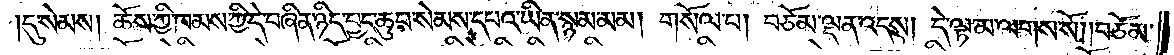དུ་སེམས། ཆོས་ཀྱི་ཁམས་ཀྱི་དེ་བཞིན་ཉིད་བྱང་ཆུབ་སེམས་དཔའ་ཡིན་སྙམ་མམ། གསོལ་པ། བཅོམ་ལྡན་འདས། དེ་ལྟ་མ་ལགས་སོ། །བཅོམ་
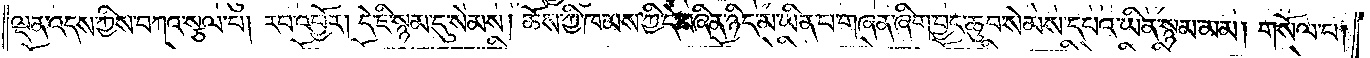ལྡན་འདས་ཀྱིས་བཀའ་སྩལ་པ། རབ་འབྱོར། དེ་ཇི་སྙམ་དུ་སེམས། ཆོས་ཀྱི་ཁམས་ཀྱི་དེ་བཞིན་ཉིད་མ་ཡིན་པ་གཞན་ཞིག་བྱང་ཆུབ་སེམས་དཔའ་ཡིན་སྙམ་མམ། གསོལ་པ།
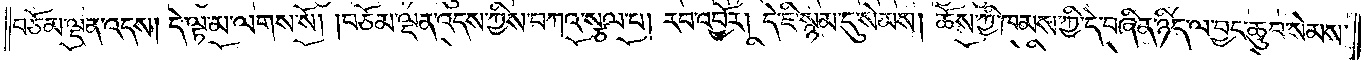བཅོམ་ལྡན་འདས། དེ་ལྟ་མ་ལགས་སོ། །བཅོམ་ལྡན་འདས་ཀྱིས་བཀའ་སྩལ་པ། རབ་འབྱོར། དེ་ཇི་སྙམ་དུ་སེམས། ཆོས་ཀྱི་ཁམས་ཀྱི་དེ་བཞིན་ཉིད་ལ་བྱང་ཆུབ་སེམས་
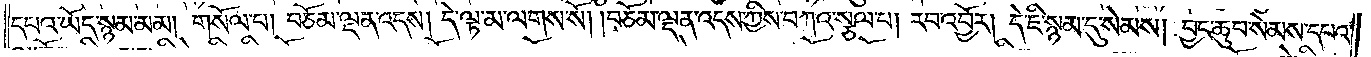དཔའ་ཡོད་སྙམ་མམ། གསོལ་པ། བཅོམ་ལྡན་འདས། དེ་ལྟ་མ་ལགས་སོ། །བཅོམ་ལྡན་འདས་ཀྱིས་བཀའ་སྩལ་པ། རབ་འབྱོར། དེ་ཇི་སྙམ་དུ་སེམས། བྱང་ཆུབ་སེམས་དཔའ་
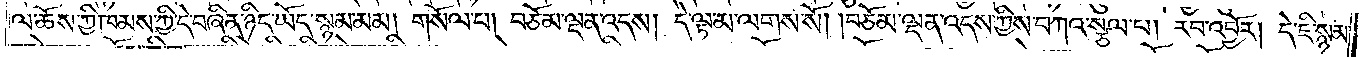ལ་ཆོས་ཀྱི་ཁམས་ཀྱི་དེ་བཞིན་ཉིད་ཡོད་སྙམ་མམ། གསོལ་པ། བཅོམ་ལྡན་འདས། དེ་ལྟ་མ་ལགས་སོ། །བཅོམ་ལྡན་འདས་ཀྱིས་བཀའ་སྩལ་པ། རབ་འབྱོར། དེ་ཇི་སྙམ་
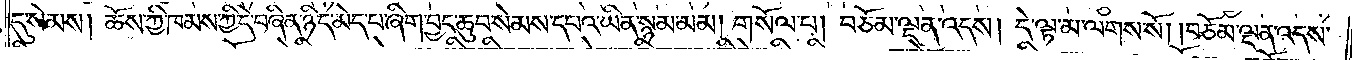དུ་སེམས། ཆོས་ཀྱི་ཁམས་ཀྱི་དེ་བཞིན་ཉིད་མེད་པ་ཞིག་བྱང་ཆུབ་སེམས་དཔའ་ཡིན་སྙམ་མམ། གསོལ་པ། བཅོམ་ལྡན་འདས། དེ་ལྟ་མ་ལགས་སོ། །བཅོམ་ལྡན་འདས་
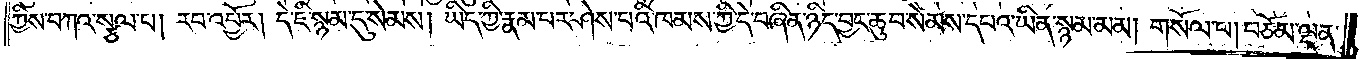ཀྱིས་བཀའ་སྩལ་པ། རབ་འབྱོར། དེ་ཇི་སྙམ་དུ་སེམས། ཡིད་ཀྱི་རྣམ་པར་ཤེས་པའི་ཁམས་ཀྱི་དེ་བཞིན་ཉིད་བྱང་ཆུབ་སེམས་དཔའ་ཡིན་སྙམ་མམ། གསོལ་པ། བཅོམ་ལྡན་
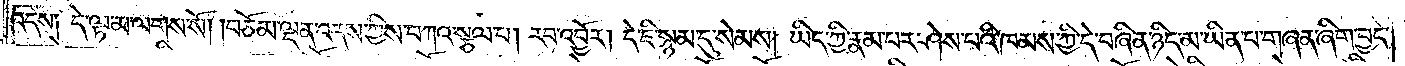འདས༑ དེ་ལྟ་མ་ལགས་སོ། །བཅོམ་ལྡན་འདས་ཀྱིས་བཀའ་སྩལ་པ། རབ་འབྱོར། དེ་ཇི་སྙམ་དུ་སེམས། ཡིད་ཀྱི་རྣམ་པར་ཤེས་པའི་ཁམས་ཀྱི་དེ་བཞིན་ཉིད་མ་ཡིན་པ་གཞན་ཞིག་བྱང་
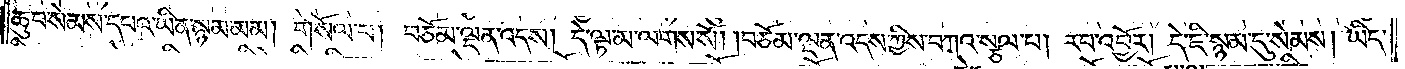ཆུབ་སེམས་དཔའ་ཡིན་སྙམ་མམ། གསོལ་པ། བཅོམ་ལྡན་འདས། དེ་ལྟ་མ་ལགས་སོ། །བཅོམ་ལྡན་འདས་ཀྱིས་བཀའ་སྩལ་པ། རབ་འབྱོར། དེ་ཇི་སྙམ་དུ་སེམས། ཡིད་
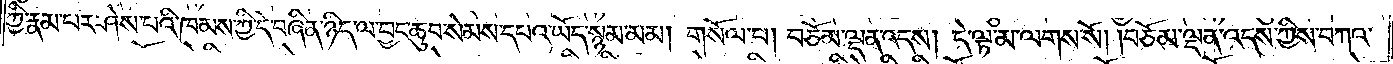ཀྱི་རྣམ་པར་ཤེས་པའི་ཁམས་ཀྱི་དེ་བཞིན་ཉིད་ལ་བྱང་ཆུབ་སེམས་དཔའ་ཡོད་སྙམ་མམ། གསོལ་པ། བཅོམ་ལྡན་འདས། དེ་ལྟ་མ་ལགས་སོ། །བཅོམ་ལྡན་འདས་ཀྱིས་བཀའ་
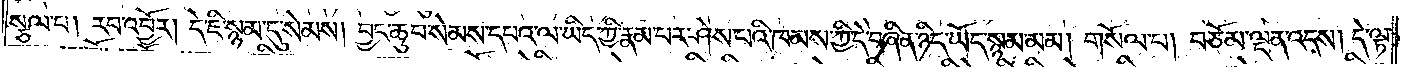སྩལ་པ། རབ་འབྱོར། དེ་ཇི་སྙམ་དུ་སེམས། བྱང་ཆུབ་སེམས་དཔའ་ལ་ཡིད་ཀྱི་རྣམ་པར་ཤེས་པའི་ཁམས་ཀྱི་དེ་བཞིན་ཉིད་ཡོད་སྙམ་མམ། གསོལ་པ། བཅོམ་ལྡན་འདས། དེ་ལྟ་
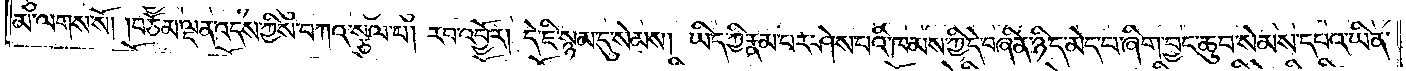མ་ལགས་སོ། །བཅོམ་ལྡན་འདས་ཀྱིས་བཀའ་སྩལ་པ། རབ་འབྱོར། དེ་ཇི་སྙམ་དུ་སེམས། ཡིད་ཀྱི་རྣམ་པར་ཤེས་པའི་ཁམས་ཀྱི་དེ་བཞིན་ཉིད་མེད་པ་ཞིག་བྱང་ཆུབ་སེམས་དཔའ་ཡིན་
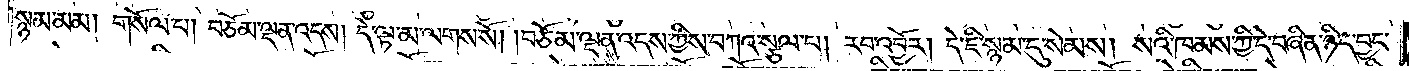སྙམ་མམ། གསོལ་པ། བཅོམ་ལྡན་འདས། དེ་ལྟ་མ་ལགས་སོ། །བཅོམ་ལྡན་འདས་ཀྱིས་བཀའ་སྩལ་པ། རབ་འབྱོར། དེ་ཇི་སྙམ་དུ་སེམས། སའི་ཁམས་ཀྱི་དེ་བཞིན་ཉིད་བྱང་
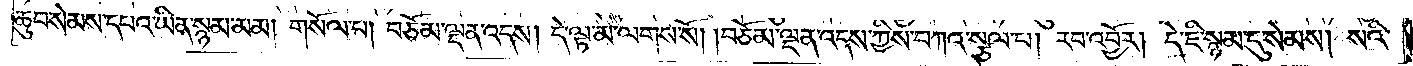ཆུབ་སེམས་དཔའ་ཡིན་སྙམ་མམ། གསོལ་པ། བཅོམ་ལྡན་འདས། དེ་ལྟ་མ་ལགས་སོ། །བཅོམ་ལྡན་འདས་ཀྱིས་བཀའ་སྩལ་པ། རབ་འབྱོར། དེ་ཇི་སྙམ་དུ་སེམས། སའི་
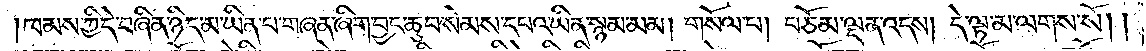ཁམས་ཀྱི་དེ་བཞིན་ཉིད་མ་ཡིན་པ་གཞན་ཞིག་བྱང་ཆུབ་སེམས་དཔའ་ཡིན་སྙམ་མམ། གསོལ་པ། བཅོམ་ལྡན་འདས། དེ་ལྟ་མ་ལགས་སོ། །
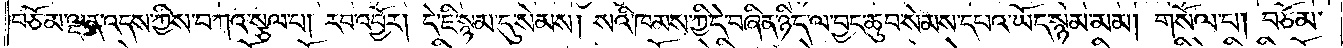བཅོམ་ལྡན་འདས་ཀྱིས་བཀའ་སྩལ་པ། རབ་འབྱོར། དེ་ཇི་སྙམ་དུ་སེམས། སའི་ཁམས་ཀྱི་དེ་བཞིན་ཉིད་ལ་བྱང་ཆུབ་སེམས་དཔའ་ཡོད་སྙམ་མམ། གསོལ་པ། བཅོམ་
